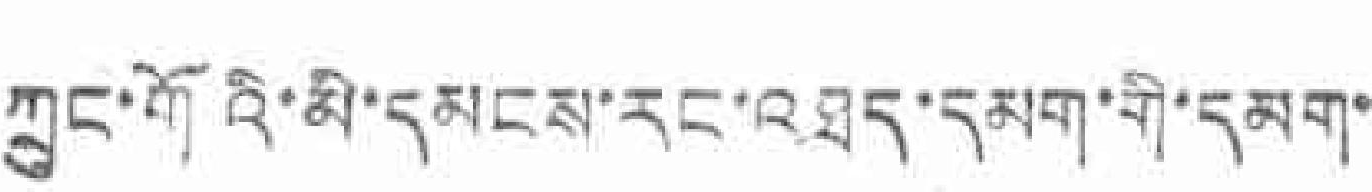ཀྲུང་གོའི་མི་དམངས་རང་འཐད་དམག་གི་དམག་
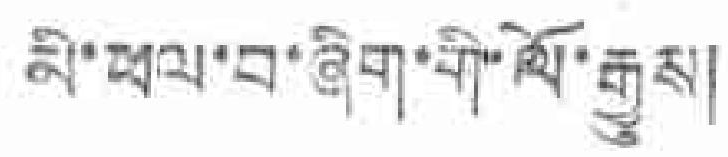མི་ཕལ་བ་ཞིག་གི་ལོ་རྒྱུས།
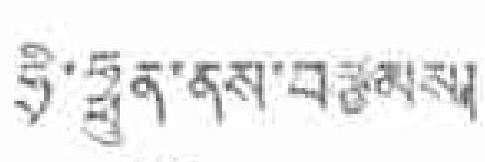ཧྲི་ཧྥུན་ནས་བརྩམས།
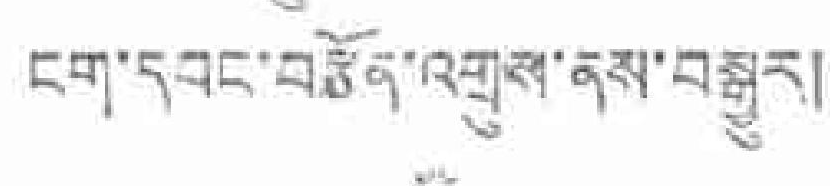ངག་དབང་བརྩོན་འགྲུས་ནས་བསྒྱུར།
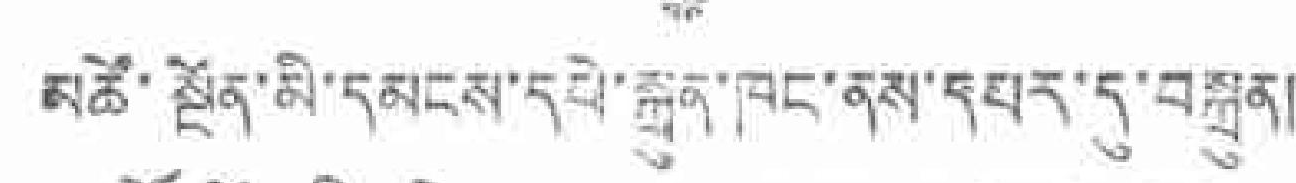མཚོ་སྔོན་མི་དམངས་དཔེ་སྐྲུན་ཁང་ནས་དཔར་དུ་བསྐྲུན།
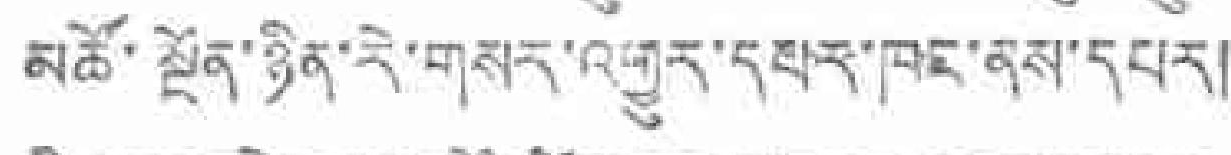མཚོ་ལྔོན་ཉིན་རེ་གསར་འགྱུར་དཔར་ཁད་ནས་དཔར།
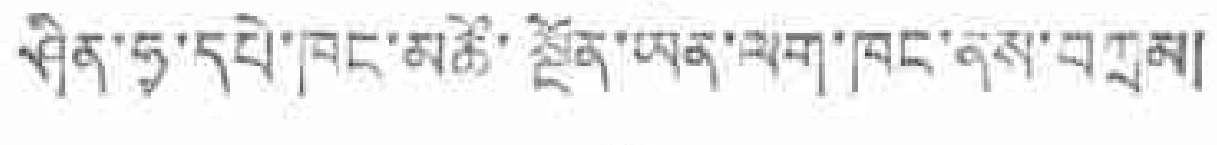ཤིན་ཧྭ་དཔེ་ཁང་མཚོ་སྔོན་ཡན་ལག་ཁང་ནས་བཀྲམ།
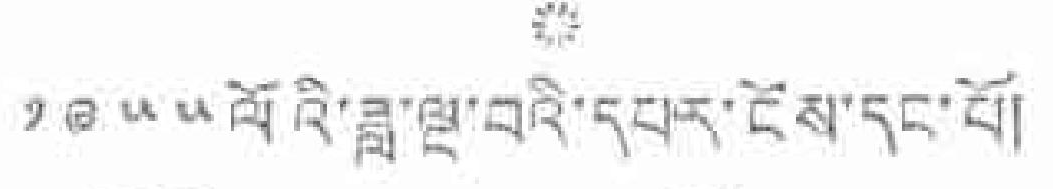༡༩༥༥ ལོའི་ཟླ་ལྔ་བའི་དཔར་ངོས་དང་པོ།
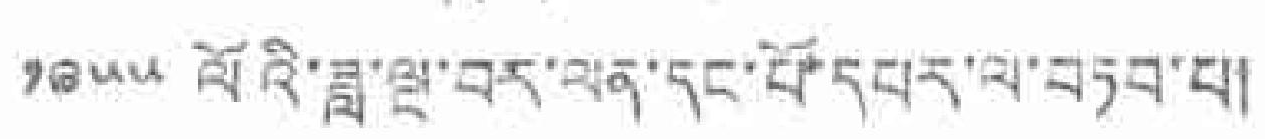༡༩༥༥ ལོའི་ཟླ་ལྔ་བར་ལན་དང་པོ་དཔར་ལ་བཏབ་པ།
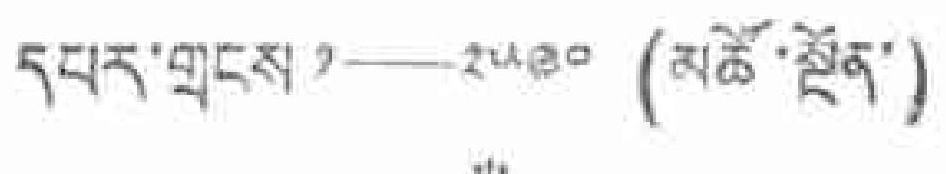དཔར་གྲངས་ ༡—༢༥༩༠ (མཚོ་སྔོན་)
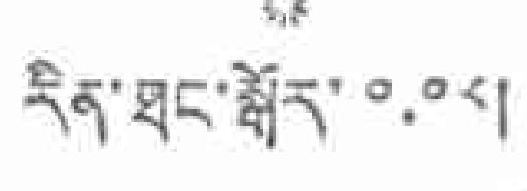རིན་ཐང་སྒོར་༠,༠༨།
